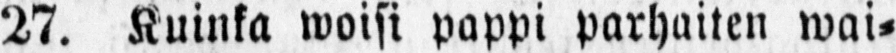27. Kuinka woisi pappi parhaiten wai-
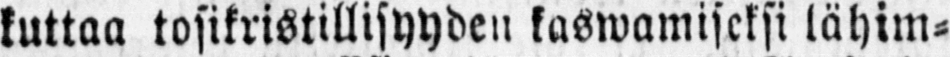kuttaa tosikristillisyyden kaswamiseksi lähim-
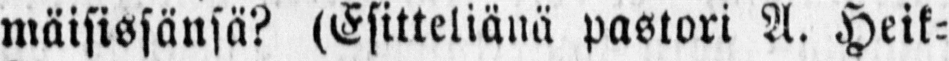mäisissänsä? (Esitteliänä pastori A. Heik-
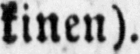kinen).
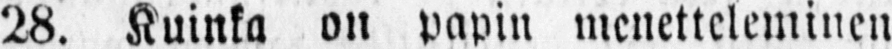28. Kuinka on papin menetteleminen
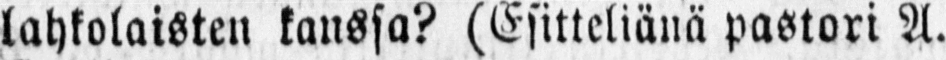lahkolaisten kanssa? (Esitteliänä pastori A.
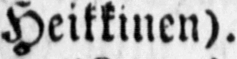Heikkinen).
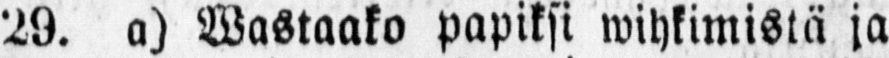29. a) Wastaako papiksi wihkimistä ja
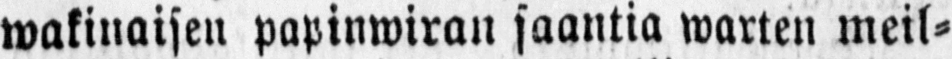wakinaisen papinwiran saantia warten meil-
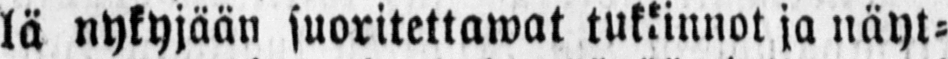lä nykyjään suoritettawat tutkinnot ja näyt-
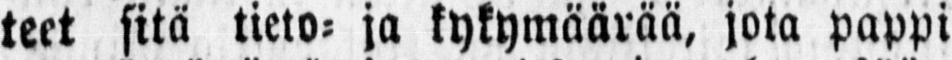teet sitä tieto- ja kykymäärää, jota pappi
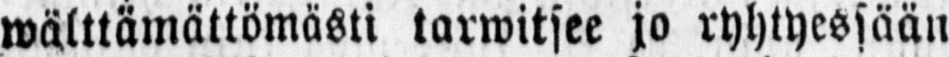wälttämättömästi tarwitsee jo ryhtyessään
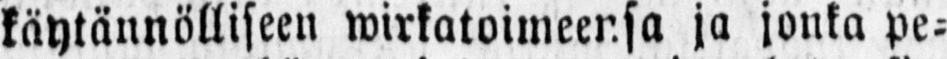käytännölliseen wirkatoimeensa ja jonka pe-
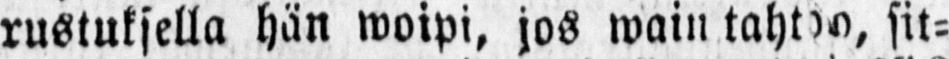rustuksella hän woipi, jos wain tahtoo, sit-
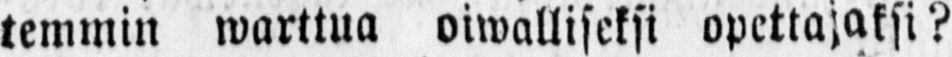temmin warttua oiwalliseksi opettajaksi?
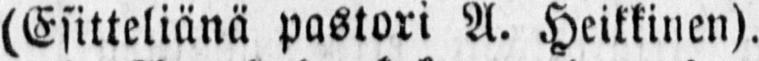(Esitteliänä pastori A. Heikkinen).
